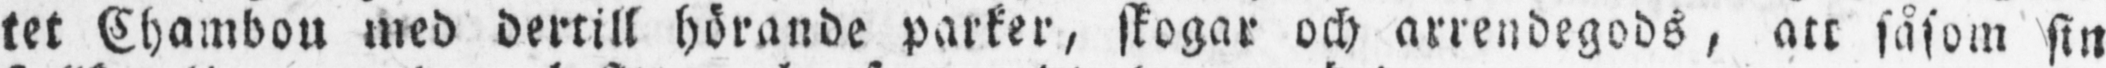tet Chambou med dertill hörande parker, skogar och arrendegods, all såsom sin
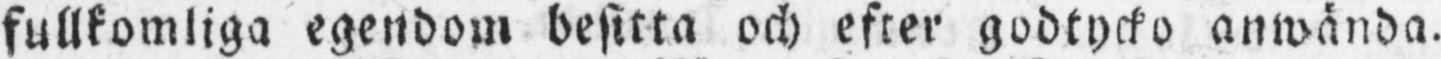fullkomliga egendom besitta och efter godtycko anwända.
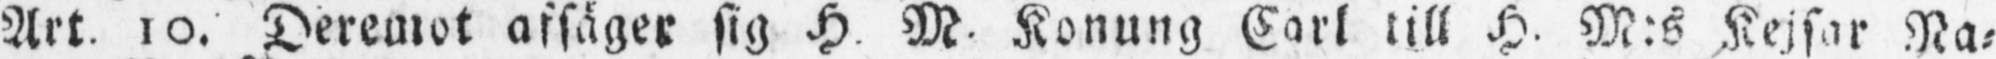Art. 10. Deremot afsäger sig H. M. Konung Carl till H. M:s Kejsar Na-
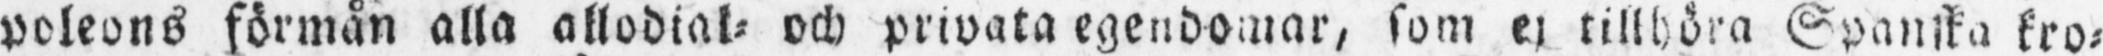poleons förmån alla allodial- och privata egendomar, som ej tillhöra Spanska kro-
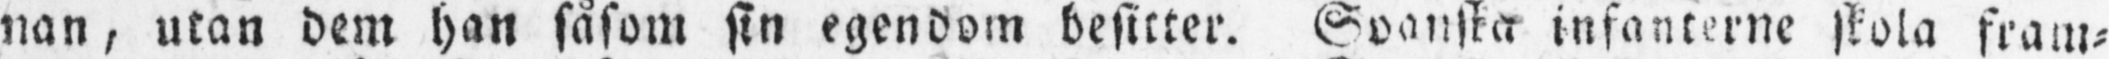nan, utan dem han såsom sin egendom besitter. Spanska infanterne skola fram-
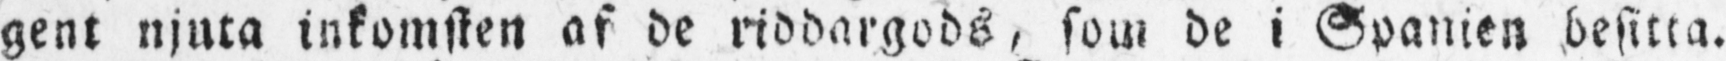gent njuta inkomsten af de riddargods, som de i Spanien besitta.
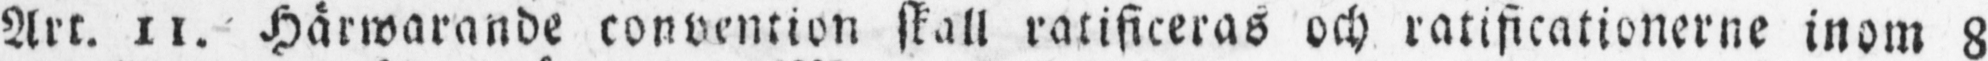Art. 11. Härwarande convention skall ratificeras och ratificationerne inom 8
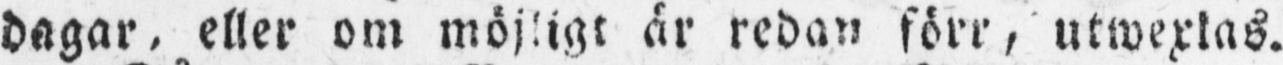dagar, eller om möjligt är redan förr, utwexlas.
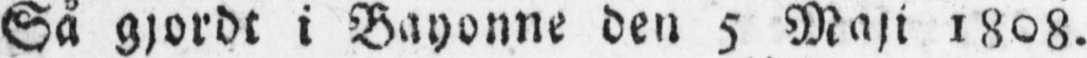Så gjordt i Bayonne den 5 Maji 1808.
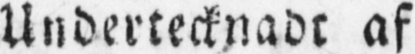Undertecknadt af
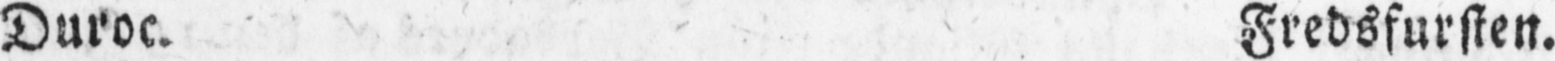Duroc. Fredsfursten.
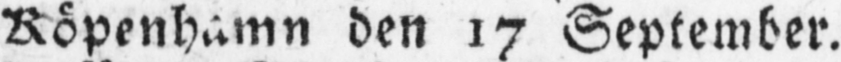Köpenhamn den 17 September.
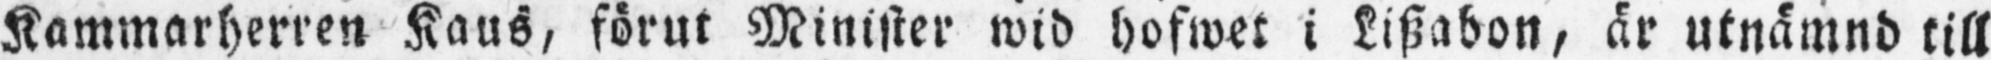Kammarherren Kaus, förut Minister wid hofwet i Liszabon, är utnämnd till
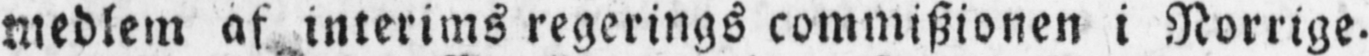medlem af interims regerings commiszionen i Norrige.
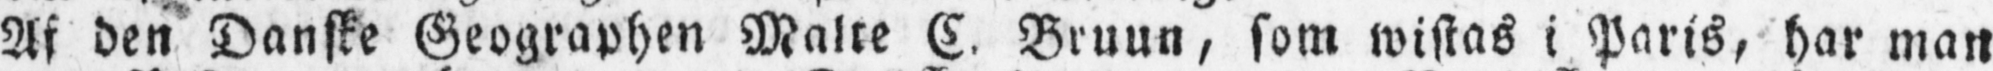Af den Danske Geographen Malte C. Bruun, som wistas i Paris, har man
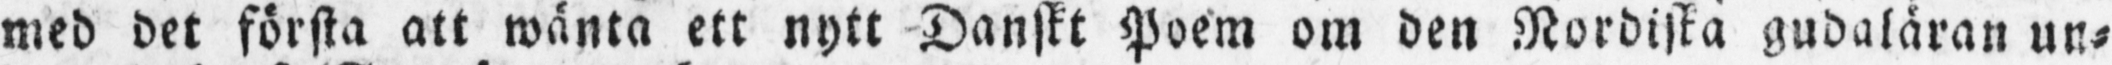med det första att wänta ett nytt Danskt Poem om den Nordiska gudaläran un-
